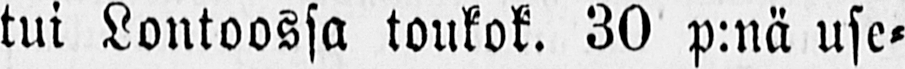tui Lontoossa toukok. 30 p:nä use-
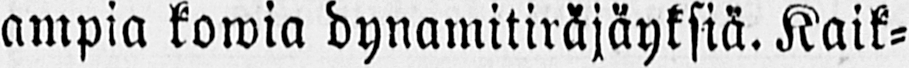ampia kowia dynamitiräjäyksiä. Kaik-
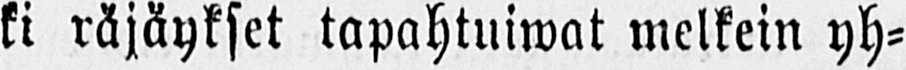ki räjäykset tapahtuiwat melkein yh-
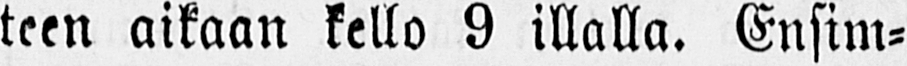teen aikaan kello 9 illalla. Ensim-
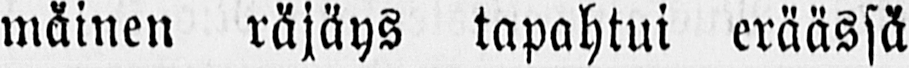mäinen räjäys tapahtui eräässä
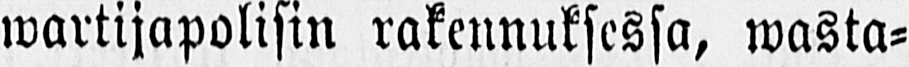wartijapolisin rakennuksessa, wasta-
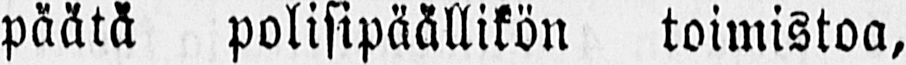päätä polisipäällikön toimistoa,
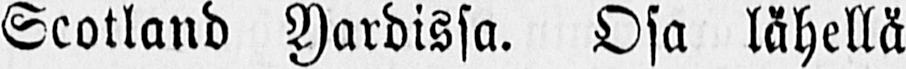Scotland Yardissa. Osa lähellä
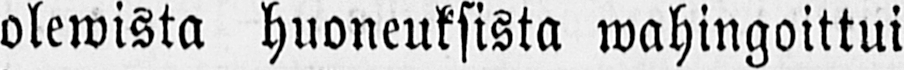olewista huoneuksista wahingoittui
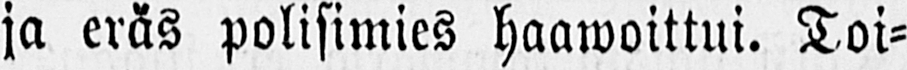ja eräs polisimies haawoittui. Toi-
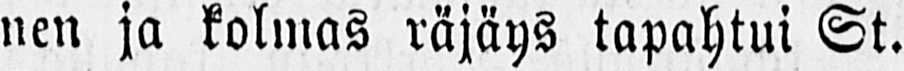nen ja kolmas räjäys tapahtui St.
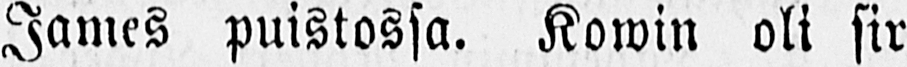James puistossa. Kowin oli sir
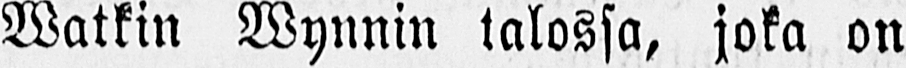Watkin Wynnin talossa, joka on
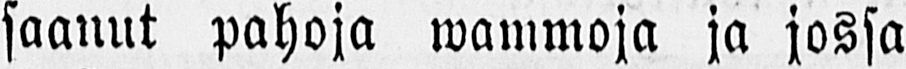saanut pahoja wammoja ja jossa
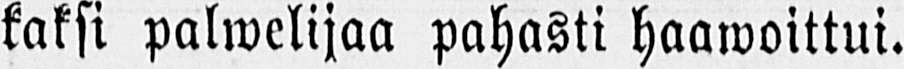kaksi palwelijaa pahasti haawoittui.
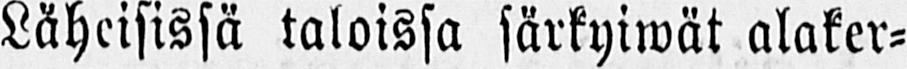Läheisissä taloissa särkyiwät alaker-
